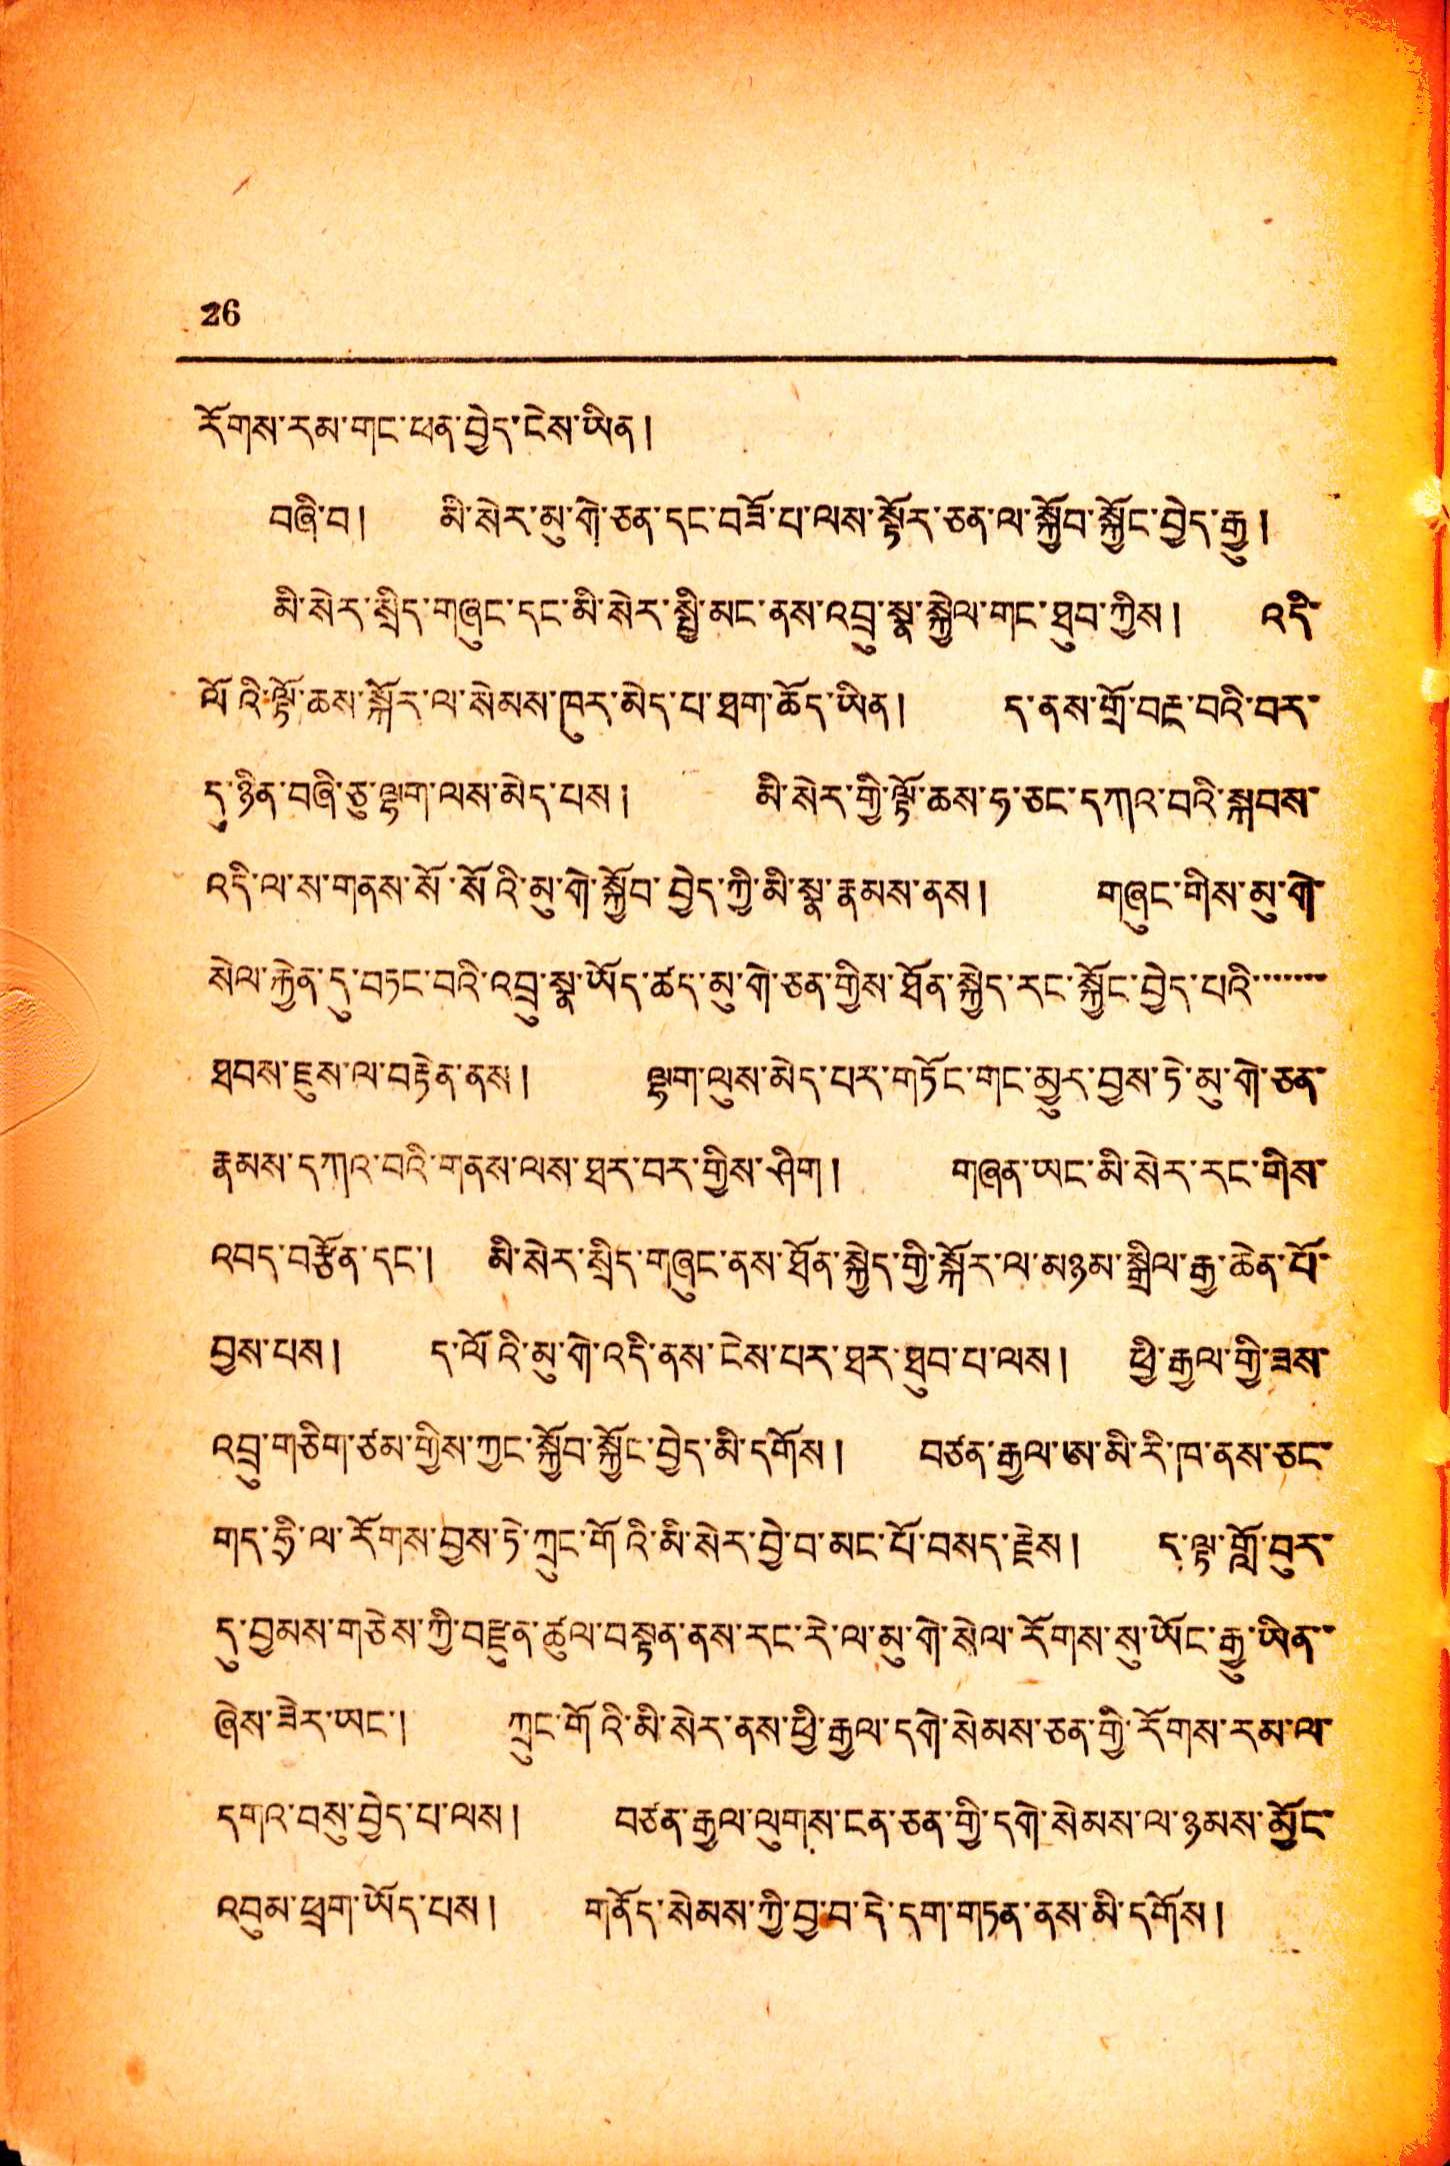26
རོགས་རམ་གང་ཕན་བྱེད་ངེས་ཡིན།
བཞི་བ། མི་སེར་མུ་གེ་ཅན་དང་བཟོ་པ་ལས་སྟོད་ཅན་ལ་སྐྱོབ་སྐྱོང་བྱེད་རྒྱུ །
མི་སེར་སྲིད་གཞུང་དང་མི་སེར་སྤྱི་མང་ནས་འབྲུ་སྣ་སྐྱེལ་གང་ཐུབ་ཀྱིས ། འདི་
ལོའི་ལྟོ་ཆས་སྐོར་ལ་སེམས་ཁུར་མེད་པ་ཐག་ཆོད་ཡིན། ད་ནས་གྲོ་བརྔ་བའི་བར་
དུ་ཉིན་བཞི་ཅུ་ལྷག་ལས་མེད་པས ། མི་སེར་གྱི་ལྟོ་ཆས་ཧ་ཅང་དཀའ་བའི་སྐབས་
འདི་ལ་ས་གནས་སོ་སོའི་མུ་གེ་སྐྱོབ་བྱེད་ཀྱི་མི་སྣ་རྣམས་ནས ། གཞུང་གིས་མུ་གེ་
སེལ་རྐྱེན་དུ་བཏང་བའི་འབྲུ་སྣ་ཡོད་ཚད་མུ་གེ་ཅན་གྱིས་ཐོན་སྐྱེད་རང་སྐྱོང་བྱེད་པའི་་་་་་་
ཐབས་ཇུས་ལ་བརྟེན་ནས ། ལྷག་ལུས་མེད་པར་གཏོང་གང་མྱུར་བྱས་ཏེ་མུ་གེ་ཅན་
རྣམས་དཀའ་བའི་གནས་ལས་ཐར་བར་གྱིས་ཤིག ། གཞན་ཡང་མི་སར་རང་གིས་
འབད་བརྩོན་དང་། མི་སེར་སྲིད་གཞུང་ནས་ཐོན་སྐྱེད་གྱི་སྐོར་ལ་མཉམ་སྒྲིལ་རྒྱ་ཆེན་པོ་
བྱས་པས ། ད་ལོའི་མུ་གེ་འདི་ནས་ངེས་པར་ཐར་ཐུབ་པ་ལས ། ཕྱི་རྒྱལ་གྱི་ཟས་
འབྲུ་གཅིག་ཙམ་གྱིས་ཀྱང་སྐྱོབ་སྐྱོང་བྱེད་མི་དགོས ། བཙན་རྒྱལ་ཨ་མི་རི་ཁ་ནས་ཅང་
གད་ཧྲི་ལ་རོགས་བྱས་ཏེ་ཀྲུང་གོའི་མི་སེར་བྱེ་བ་མང་པོ་བསད་རྗེས། ད་ལྟ་གློ་བུར་
དུ་བྱམས་གཅེས་ཀྱི་བརྫུན་ཚུལ་བསྟན་ནས་རང་རེ་ལ་མུ་གེ་སེལ་རོགས་སུ་ཡོང་རྒྱུ་ཡིན་་
ཞེས་ཟེར་ཡང་། ཀྲུང་གོའི་མི་སེར་ནས་ཕྱི་རྒྱལ་དགེ་སེམས་ཅན་གྱི་རོགས་རམ་ལ་
དགའ་བསུ་བྱེད་པ་ལས ། བཙན་རྒྱལ་ལུགས་ངན་ཅན་གྱི་དགེ་སེམས་ལ་ཉམས་མྱོང་
འབུམ་ཕྲག་ཡོད་པས ། གནོད་སེམས་ཀྱི་བྱ་བ་དེ་དག་གཏན་ནས་མི་དགོས །
